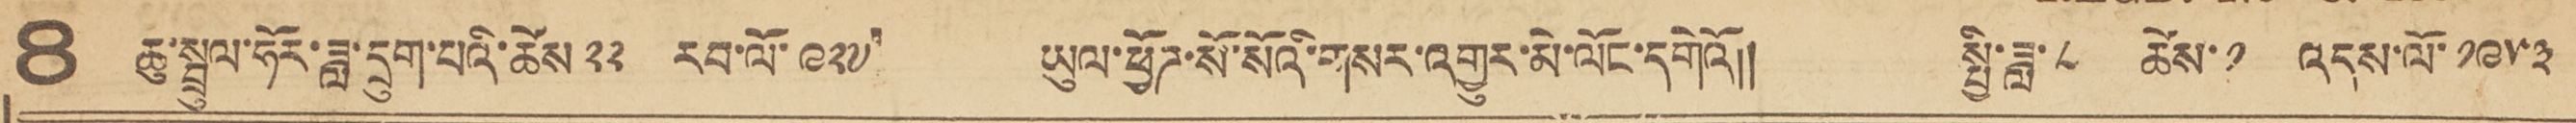8 ཆུ་སྦྲུལ་ཧོར་ཟླ་དྲུག་པའི་ཚེས་ ༢༢ རབ་ལོ་ ༩༢༧ ཡུལ་ཕྱོཌ་སོ་སོའི་གསར་འགྱུར་མེ་ལོང་དགེའོ།། སྤྱི་ཟླ་ ༨ ཚེས་ ༡ འདས་ལོ་ ༡༩༥༣
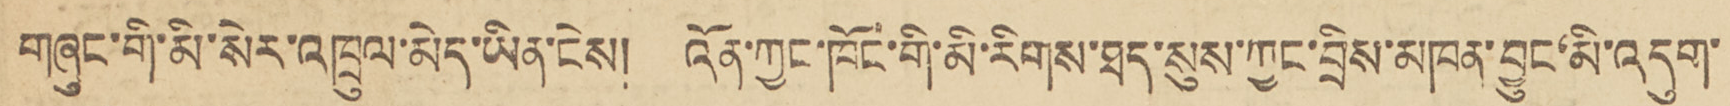གཞུང་གི་མི་སེར་འཁྲུལ་མེད་ཡིན་ངེས། འོན་ཀྱང་ཁོང་གི་མི་རིགས་ཐད་སུས་ཀྱང་བྲིས་མཁན་བྱུང་མི་འདུག་
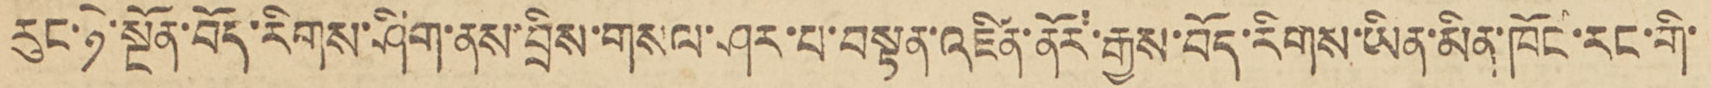རུང་ཉེ་སྔོན་བོད་རིགས་ཤོག་ནས་བྲིས་གསལ་ཤར་པ་བསྟན་འཛིན་ནོར་རྒྱས་བོད་རིགས་ཡིན་མིན་ཁོང་རང་གི་
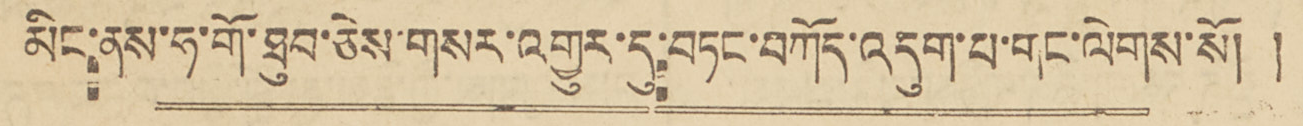མིང་ནས་ཧ་གོ་ཐུབ་ཅེས་གསར་འགྱུར་དུ་བཏང་བཀོད་འདུག་པ་གང་ལེགས་སོ།།
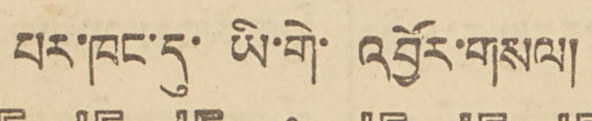པར་ཁང་དུ་ཡི་གེ་འབྱོར་གསལ།
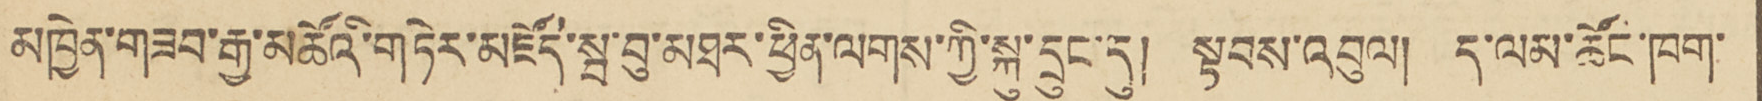མཁྱེན་གཟབ་རྒྱ་མཚོའི་གཏེར་མཛོད་སྦ་བུ་མཐར་ཕྱིན་ལེགས་ཀྱི་སྐུ་དྲུང་དུ། སྟབས་འབུལ། ད་ལམ་ཚོང་ཁག་
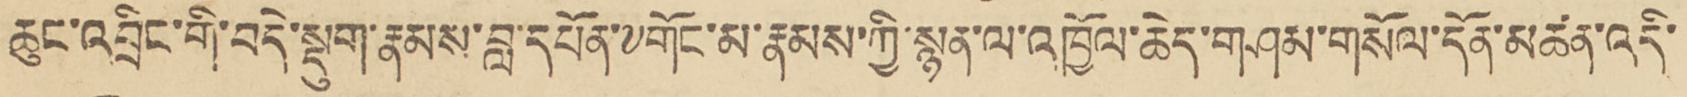ཆུང་འབྲིང་གི་བདེ་སྡུག་རྣམས་བླ་དཔོན་༸གོང་མ་རྣམས་ཀྱི་སྙན་ལ་འཁྱོལ་ཆེད་གཤམ་གསོལ་དོན་མཚན་འདི་
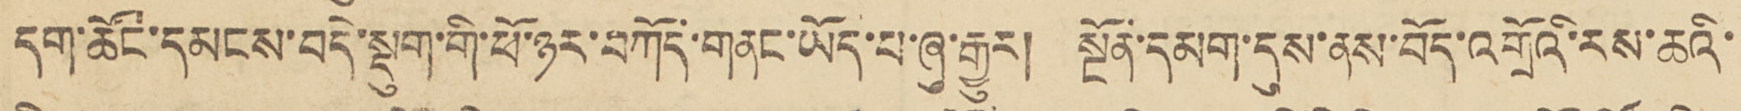དག་ཚོང་དམངས་བདེ་སྡུག་གི་ཕོ་ཉར་བཀོད་གནང་ཡོད་པ་ཞུ་རྒྱུར། སྔོན་དམག་དུས་ནས་བོད་འགྲོའི་རས་ཆེའི་
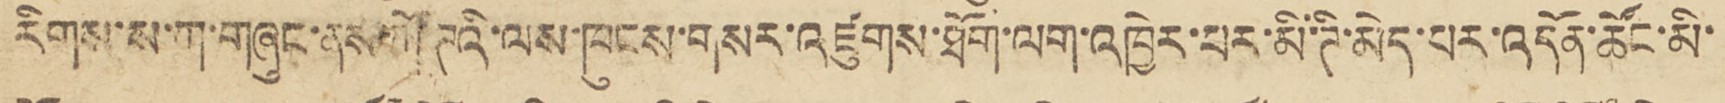རིགས་ས་ཀ་གཞུང་ནས་ཀོ་ཌའི་ལས་ཁུངས་གསར་འཛུགས་ཐོག་ལག་འཁྱེར་པར་མི་ཊི་མེད་པར་འདོན་ཚོང་མི་
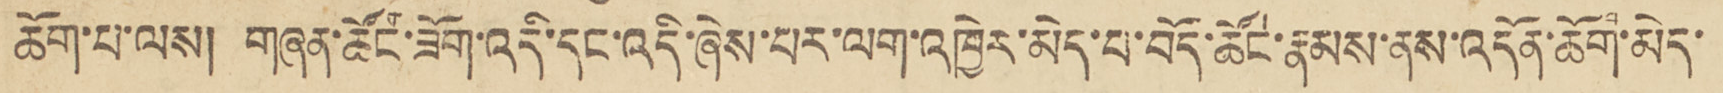ཆོག་པ་ལས། གཞན་ཚོང་ཟོག་འདི་དང་འདི་ཞེས་པར་ལག་འཁྱེར་མེད་པ་བོད་ཚོང་རྣམས་ནས་འདོན་ཆོག་མེད་
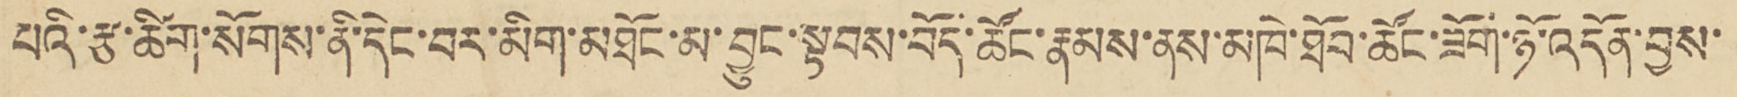པའི་རྩ་ཚིག་སོགས་ནི་དེང་བར་མིག་མཐོང་མ་བྱུང་སྟབས་བོད་ཚོང་རྣམས་ནས་མཁེ་ཐོབ་ཚོང་ཟོག་ཉོ་འདོན་བྱས་
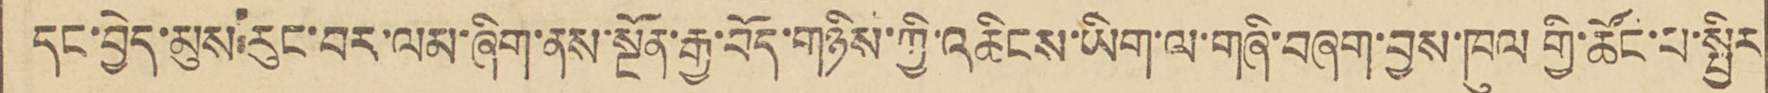དང་བྱེད་མུས་རུང་བར་ལམ་ཞིག་ནས་སྔོན་རྒྱ་བོད་གཉིས་ཀྱི་འཆིངས་ཡིག་ལ་གཞི་བཞག་བྱས་ཁུལ གྱི་ཚོང་པ་སྤྱིར
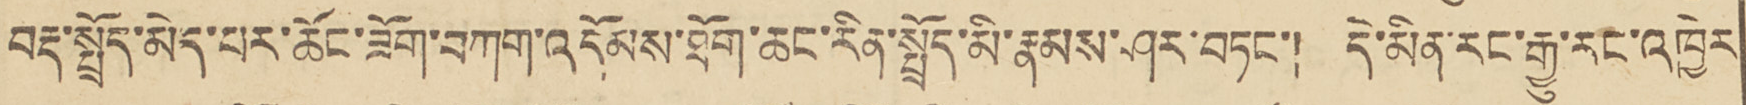བརྡ་སྤྲོད་མེད་པར་ཆོང་ཟོག་བཀག་འདོམས་ཐོག་ཆང་རིན་སྤྲོད་མི་རྣམས་ཤར་བཏང་། དེ་མིན་རང་རྒྱུ་རང་འཁྱེར
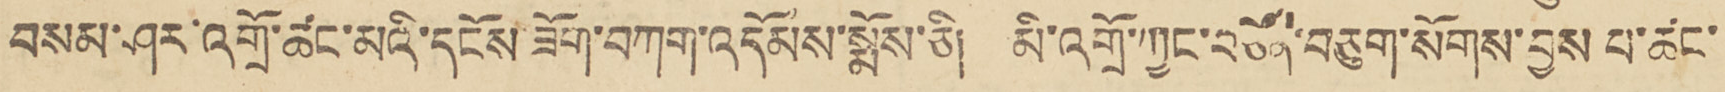བསམ་ཤར་འགྲི་ཚང་མའི་དངོས ཟོག་བཀག་འདོམས་སྨོས་ཅི། མི་འགྲོ་ཀྱང་བཙོན་བཅུག་སོགས་བྱས་པ་ཚང་
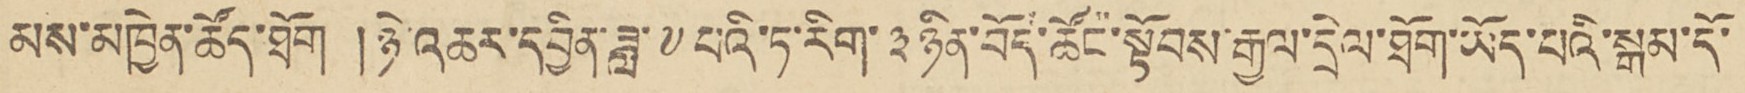མས་མཁྱེན་ཚོད་ཐོག །ཉེ་འཆར་དབྱིན་ཟླ་ ༧ པའི་ཏ་རིག་ ༣ ཉིན་བོད་ཚོང་སྟོབས་རྒྱལ་དྲེལ་ཐོག་ཡོད་པའི་སྒམ་དོ་
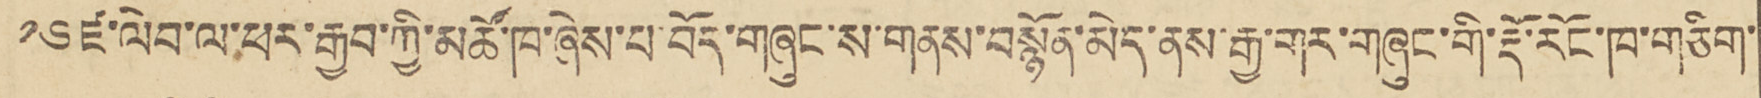༡༦ རྫ་ལེབ་ལ་ཕར་རྒྱབ་ཀྱི་མཚོ་ཁ་ཞེས་པ བོད་གཞུང་ས་གནས་བསྙོན་མེད་ནས་རྒྱ་གར་གཞུང་གི་རྡོ་རོང་ཁ་གཅིག་
